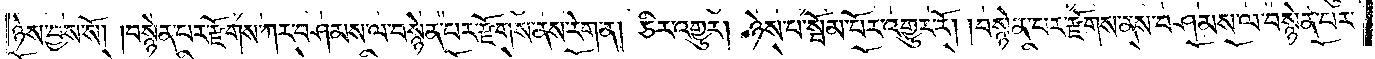ཉེས་བྱས་སོ། །བསྙེན་པར་རྫོགས་ཀར་བཤམས་ལ་བསྙེན་པར་རྫོགས་ནས་རེག་ན། ཅིར་འགྱུར། ཉེས་པ་སྦོམ་པོར་འགྱུར་རོ། །བསྙེན་པར་རྫོགས་ནས་བཤམས་ལ་བསྙེན་པར་
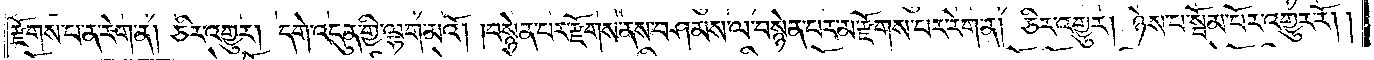རྫོགས་པ་ན་རེག་ན། ཅིར་འགྱུར། དགེ་འདུན་གྱི་ལྷག་མའོ། །བསྙེན་པར་རྫོགས་ནས་བཤམས་ལ་བསྙེན་པར་མ་རྫོགས་པར་རེག་ན། ཅིར་འགྱུར། ཉེས་པ་སྦོམ་པོར་འགྱུར་རོ། །
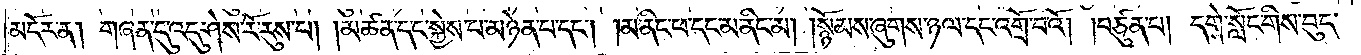མདོར་ན། གཞན་དུ་འདུ་ཤེས་རོ་རུས་པ། །མཚན་དང་སྐྱེས་པ་མཉེན་པ་དང༌། །མ་ནིང་ཕ་དང་མ་ནིང་མ། །སྙོམས་ཞུགས་ཉལ་དང་འགྲོ་བའོ། །བཙུན་པ། དགེ་སློང་གིས་བུད་
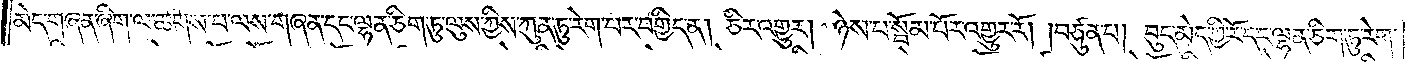མེད་གཞན་ཞིག་ལ་ཆགས་པ་ལས་གཞན་དང་ལྷན་ཅིག་ཏུ་ལུས་ཀྱིས་ཀུན་ཏུ་རེག་པར་བགྱིད་ན། ཅིར་འགྱུར། ཉེས་པ་སྦོམ་པོར་འགྱུར་རོ། །བཙུན་པ། བུད་མེད་ཀྱི་རོ་དང་ལྷན་ཅིག་ཏུ་རེག་
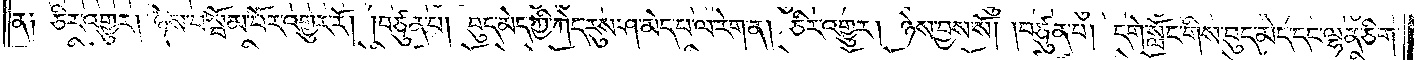ན༑ ཅིར་འགྱུར། ཉེས་པ་སྦོམ་པོར་འགྱུར་རོ། །བཙུན་པ། བུད་མེད་ཀྱི་ཀེད་རུས་ཤ་མེད་པ་ལ་རེག་ན། ཅིར་འགྱུར། ཉེས་བྱས་སོ། །བཙུན་པ། དགེ་སློང་གིས་བུད་མེད་དང་ལྷན་ཅིག་
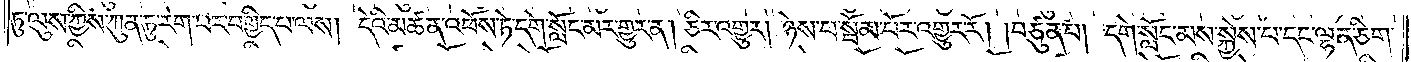ཏུ་ལུས་ཀྱིས་ཀུན་ཏུ་རེག་པར་བགྱིད་པ་ལས། དེའི་མཚན་འཕོས་ཏེ་དགེ་སློང་མར་གྱུར་ན། ཅིར་འགྱུར། ཉེས་པ་སྦོམ་པོར་འགྱུར་རོ། །བཙུན་པ། དགེ་སློང་མས་སྐྱེས་པ་དང་ལྷན་ཅིག་
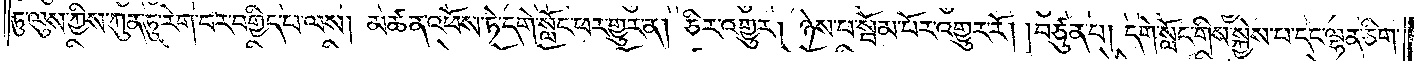ཏུ་ལུས་ཀྱིས་ཀུན་ཏུ་རེག་པར་བགྱིད་པ་ལས། མཚན་འཕོས་ཏེ་དགེ་སློང་ཕར་གྱུར་ན། ཅིར་འགྱུར། ཉེས་པ་སྦོམ་པོར་འགྱུར་རོ། །བཙུན་པ། དགེ་སློང་གིས་སྐྱེས་པ་དང་ལྷན་ཅིག་
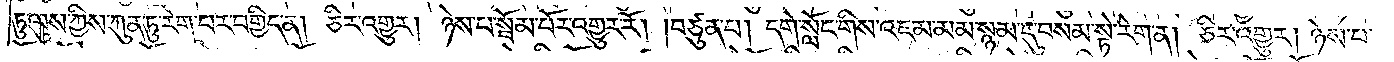ཏུ་ལུས་ཀྱིས་ཀུན་ཏུ་རེག་པར་བགྱིད་ན། ཅིར་འགྱུར། ཉེས་པ་སྦོམ་པོར་འགྱུར་རོ། །བཙུན་པ། དགེ་སློང་གིས་འཇམ་མམ་སྙམ་དུ་བསམ་སྟེ་རེག་ན། ཅིར་འགྱུར། ཉེས་པ་
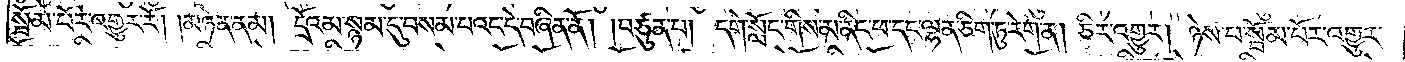སྦོམ་པོར་འགྱུར་རོ། །མཉེན་ནམ། དྲོའམ་སྙམ་དུ་བསམ་པའང་དེ་བཞིན་ནོ། །བཙུན་པ། དགེ་སློང་གིས་མ་ནིང་ཕ་དང་ལྷན་ཅིག་ཏུ་རེག་ན། ཅིར་འགྱུར། ཉེས་པ་སྦོམ་པོར་འགྱུར་
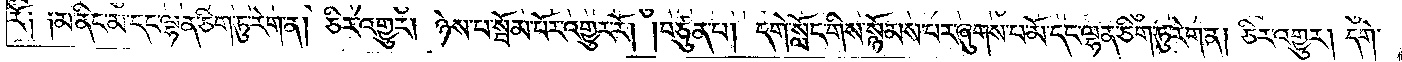རོ༑ ༑མ་ནིང་མ་དང་ལྷན་ཅིག་ཏུ་རེག་ན། ཅིར་འགྱུར། ཉེས་པ་སྦོམ་པོར་འགྱུར་རོ། །བཙུན་པ། དགེ་སློང་གིས་སྙོམས་པར་ཞུགས་པ་མོ་དང་ལྷན་ཅིག་ཏུ་རེག་ན། ཅིར་འགྱུར། དགེ་
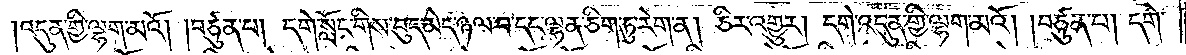འདུན་གྱི་ལྷག་མའོ། །བཙུན་པ། དགེ་སློང་གིས་བུད་མེད་ཉལ་བ་དང་ལྷན་ཅིག་ཏུ་རེག་ན། ཅིར་འགྱུར། དགེ་འདུན་གྱི་ལྷག་མའོ། །བཙུན་པ། དགེ་
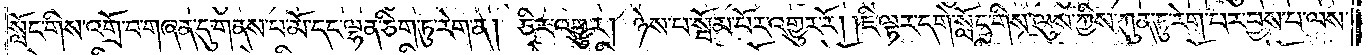སློང་གིས་འགྲོ་བ་གཞན་དུ་གནས་པ་མོ་དང་ལྷན་ཅིག་ཏུ་རེག་ན། ཅིར་འགྱུར། ཉེས་པ་སྦོམ་པོར་འགྱུར་རོ། །ཇི་ལྟར་དགེ་སློང་གིས་ལུས་ཀྱིས་ཀུན་ཏུ་རེག་པར་བྱས་པ་ལས་
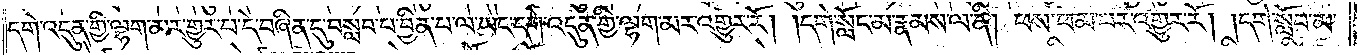དགེ་འདུན་གྱི་ལྷག་མར་གྱུར་པ་དེ་བཞིན་དུ་བསླབ་པ་བྱིན་པ་ལ་ཡང་དགེ་འདུན་གྱི་ལྷག་མར་འགྱུར་རོ། །དགེ་སློང་མ་རྣམས་ལ་ནི། ཕས་ཕམ་པར་འགྱུར་རོ། །དགེ་སློབ་མ་
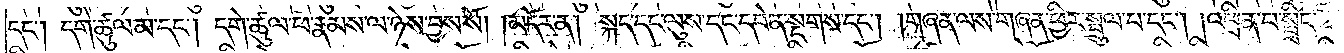དང༌། དགེ་ཚུལ་མ་དང༌། དགེ་ཚུལ་ཕ་རྣམས་ལ་ཉེས་བྱས་སོ།    །མདོར་ན། སྐད་དང་ལུས་དང་དབེན་སྔགས་དང༌། །གཞན་ལས་གཞན་ཕྱིར་སྤྲུལ་པ་དང༌། །འཕྲིན་པ་སྤྲིང་
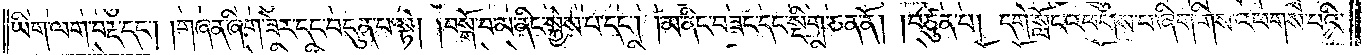ཡིག་ལག་བརྡ་དང༌། །གཞན་ཞིག་ཟེར་དང་བདུན་པ་སྟེ། །བསྒོ་བ་མ་ནིང་སྐྱེས་པ་དང༌། །མ་ནིང་བཟང་དང་སྡིག་ཅན་ནོ། །བཙུན་པ། དགེ་སློང་འཕགས་པ་ཞིག་གིས་འཕགས་པའི་
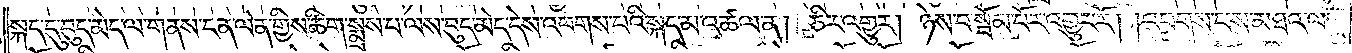སྐད་དུ་བུད་མེད་ལ་གནས་ངན་ལེན་གྱིས་ཚིག་སྨྲས་པ་ལས་བུད་མེད་དེས་འཕགས་པའི་སྐད་མ་འཚལ་ན། ཅིར་འགྱུར། ཉེས་པ་སྦོམ་པོར་འགྱུར་རོ། །འཕགས་པས་མཐའ་ལ་
